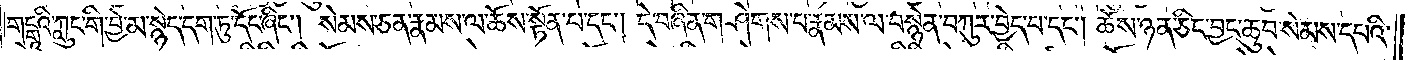གངྒཱའི་ཀླུང་གི་བྱེ་མ་སྙེད་དག་དོང་ཞིང་། སེམས་ཅན་རྣམས་ལ་ཆོས་སྟོན་པ་དང་། དེ་བཞིན་གཤེགས་པ་རྣམས་ལ་བསྙེན་བཀུར་བྱེད་པ་དང་། ཆོས་ཉན་ཅིང་བྱང་ཆུབ་སེམས་དཔའི་
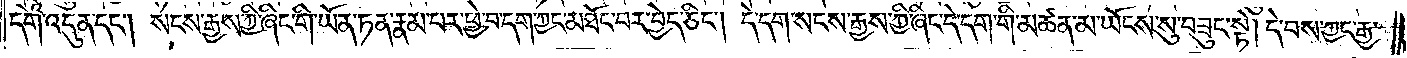དགེ་འདུན་དང་། སངས་རྒྱས་ཀྱི་ཞིང་གི་ཡོན་ཏན་རྣམ་པར་ཕྱེ་བ་དག་ཀྱང་མཕོང་བར་བྱེད་ཅིང་། དེ་དག་ལ་སངས་རྒྱས་ཀྱི་ཞིང་དེ་དག་གི་མཚན་མ་ཡོངས་སུ་བཟུང་སྟེ། དེ་བས་ཀྱང་རྒྱ་
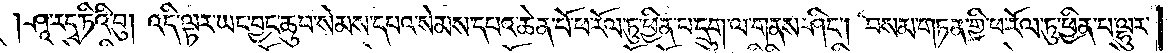ཤཱ་རདཱ་ཏིའི་བུ། འདི་ལྟར་ཡང་བྱང་ཆུབ་སེམས་དཔའ་སེམས་དཔའ་ཆེན་པོ་ཕ རོལ་ཏུ་ཕྱིན་པ་དྲུག་ལ་གནས་ཤིང་། བསམ་གཏན་གྱི་ཕ་རོལ་ཏུ་ཕཨཡིན་པ་ལྷུར་
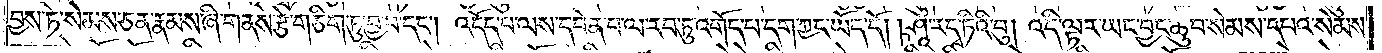བྱས་ཏེ་སམས་ཆན་རྣམས་ཞི་གནས་རྩེ་གཅིག་ཏུ་བྱ་བ་དང་། འདོད་པ་ལས་དབེན་པ་ལ་རབ་ཏུ་འགོད་པ་དག་ཀྱང་ཡོད་དོ། །ཤཱ་རདཱ་ཏིའི་བུ། འདི་ལྟར་ཡང་བྱང་ཆུབ་སེམས་དཔའ་སེམས་
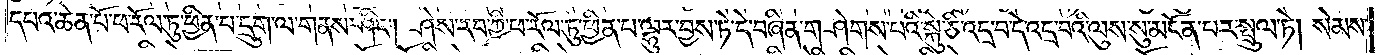དཔའ་ཆེན་པོ་ཕ་རོལ་ཏུ་ཕྱིན་པ་དྲུག་ལ་གནས་ཤིང་། ཤེས་རབ་ཀྱི་ཕ་རོལ་ཏུ་ཕྱིན་པ་ལྷུར་བྱས་ཏེ་དེ་ཞིན་གཤེགས་པའི་སྐུ་ཅི་འདྲ་བ་དེ་འདྲ་བའི་ལུས་སུ་མངོན་པར་སྤྲུལ་ཏེ། སེམས་
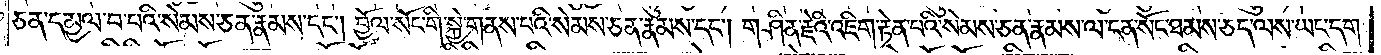ཅན་དམྱལ་བ་པའི་སེམས་ཅན་རྣམས་དང་།  བྱོལ་སོང་གི་སྐྱེ་གནས་པའི་སེམས་ཅན་རྣམས་དང་།  གཤིན་རྗེའི་འཇིག་རྟེན་པའི་སེམས་ཅན་རྣམས་ལ་ངན་སོང་ཐམས་ཅད་ལས་ཡང་དག་
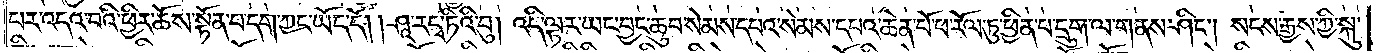པར་འདའ་བི་ཕྱིར་ཆོས་སྟོན་པ་དག་ཀྱང་ཡོད་དོ༎  ཤཱ་རདྭ་ཏིའི་བུ།  འདི་ལྟར་ཡང་བྱང་ཆུབ་སེམས་དཔའ་སེམས་དཔའ་ཆེན་པོ་ཕ་རོལ་ཏུ་ཕྱིན་པ་དྲུག་ལ་གནས་ཤིང་།  སངས་རྒྱས་ཀྱི་སྐུ་
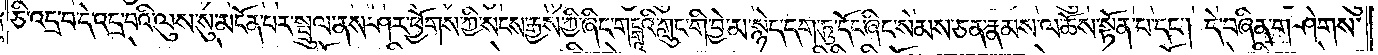ཅི་འདྲ་བ་དེ་འདྲ་བའི་ལུས་སུ་མངོན་པར་སྤྲུལ་ནས་ཤར་ཕྱོགས་ཀྱི་གངྒཱའི་ཀླུང་གི་བྱེ་མ་སྙེད་དག་ཏུ་དོང་ཞིང༌སེམས་ཅན་རྣམས་ལ་ཆོས་སྟོན་པ་དང༌། དེ་བཞིན་གཤེགས་
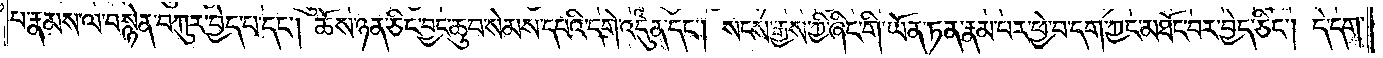པ་རྣམས་ལ་བསྙེན་བཀུར་བྱེད་པ་དང་།  ཆོས་ཉན་ཅིང་བྱང་ཆུབ་སེམས་དཔའི་དགེ་འདུན་དང༌། སངས་རྒྱས་ཀྱི་ཞིང་གི་ཡོན་ཏན་རྣམ་པར་ཕྱེ་བ་དག་ཀྱང་མཐོང་བར་བྱེད་ཅིང༌། དེ་དག་
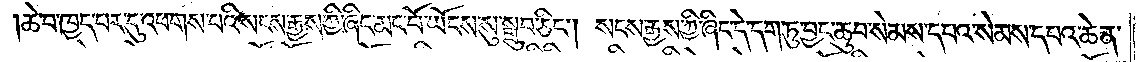ཆེ་བ་ཁྱད་པར་དུ་འཕགས་པའི་སངས་རྒྱས་ཀྱི་ཞིང་མང་པོ་ཡོངས་སུ་སྒྲུབ་ཅིང༌། སངས་རྒྱས་ཀྱི་ཞིང་དེ་དག་ཏུ་བྱང་ཆུབ་སེམས་དཔའ་སེམས་དཔའ་ཆེན་
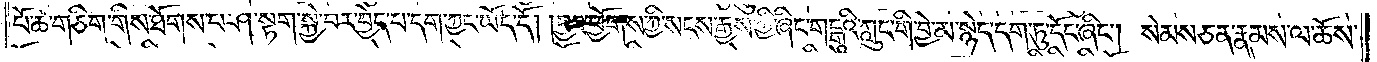པོ་ཚེ་གཅིག་གིས་ཐོགས་པ་ཤ་སྟག་སྐྱེ་བར་བྱེད་པ་དག་ཀྱང་ཡོད་དོ། །བྱང་ཕྱོགས་ཀྱི་སངས་རྒྱས་ཀྱི་ཞིང་གངྒཱའི་ཀླུང་གི་བྱེ་མ་སྙེད་དག་ཏུ་དོང་ཞིང༌། སེམས་ཅན་རྣམས་ལ་ཆོས་
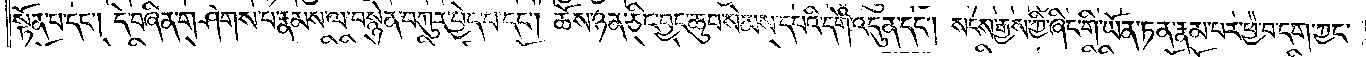སྟོན་པ་དང༌། དེ་བཞིན་གཤེགས་པ་རྣམས་ལ་བསྙེན་བཀུར་བྱེད་པ་དང༌། ཆོས་ཉན་ཅིང་བྱང་ཆུབ་སེམས་དཔའི་དགེ་འདུན་དང༌། སངས་རྒྱས་ཀྱི་ཞིང་གི་ཡོན་ཏན་རྣམ་པར་ཕྱེ་བ་དག་ཀྱང་
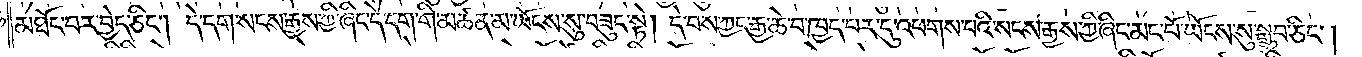མཐོང་བར་བྱེད་ཅིང༌། དེ་དག་སངས་རྒྱས་ཀྱི་ཞིང་དེ་དག་གི་མཚན་མ་ཡོངས་སུ་བཟུང་སྟེ། དེ་བས་ཀྱང་རྒྱ་ཆེ་བ་ཁྱད་པར་དུ་འཕགས་པའི་སངས་རྒྱས་ཀྱི་ཞིང་མང་པོ་ཡོངས་སུ་སྒྲུབ་ཅིང༌།
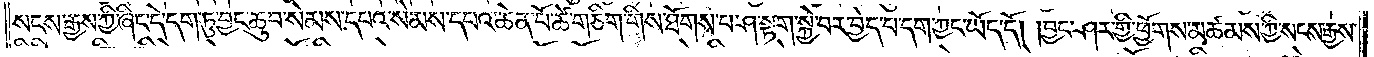སངས་རྒྱས་ཀྱི་ཞིང་དེ་དག་ཏུ་བྱང་ཆུབ་སེམས་དཔའ་སེམས་དཔའ་ཆེན་པོ་ཚེ་གཅིག་གིས་ཐོགས་པ་ཤ་སྟག་སྐྱེ་བར་བྱེད་པ་དག་ཀྱང་ཡོད་དོ། །བྱང་ཤར་གྱི་ཕྱོགས་མཚམས་ཀྱི་སངས་རྒྱས་
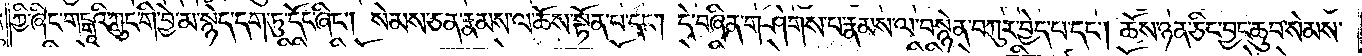ཀྱི་ཞིང་གངྒཱའི་ཀླུང་གི་བྱེ་མ་སྙེད་དག་ཏུ་དོང་ཞིང༌། སེམས་ཅན་རྣམས་ལ་ཆོས་སྟོན་པ་དང༌། དེ་བཞིན་གཤེགས་པ་རྣམས་ལ་བསྙེན་བཀུར་བྱེད་པ་དང༌། ཆོས་ཉན་ཅིང་བྱང་ཆུབ་སེམས་
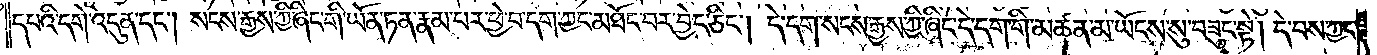དཔའི་དགེ་འདུན་དང༌། སངས་རྒྱས་ཀྱི་ཞིང་གི་ཡོན་ཏན་རྣམ་པར་ཕྱེ་བ་དག་ཀྱང་མཐོང་བར་བྱེད་ཅིང༌། དེ་དག་སངས་རྒྱས་ཀྱི་ཞིང་དེ་དག་གི་མཚན་མ་ཡོངས་སུ་བཟུང་སྟེ། དེ་བས་ཀྱང་
